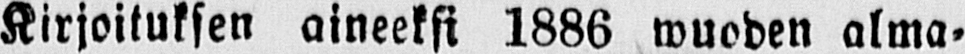Kirjoituksen aineeksi 1886 wuoden alma-
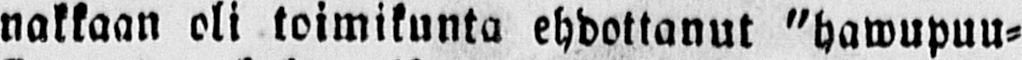nakkaan oli toimikunta ehdottanut "hawupuu-
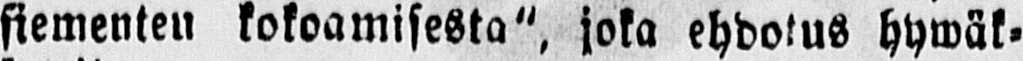siementen kokoamisesta", joka ehdotus hywäk-
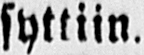syttiin.
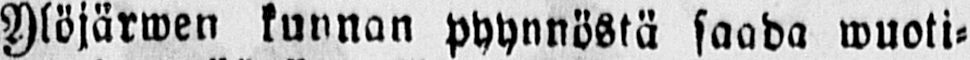Ylöjärwen kunnan pyynnöstä saada wuoti-
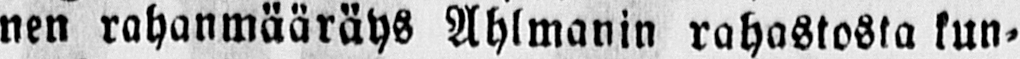nen rahanmääräys Ahlmanin rahastosta kun-
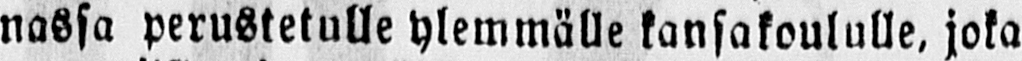nassa perustetulle ylemmälle kansakoululle, joka
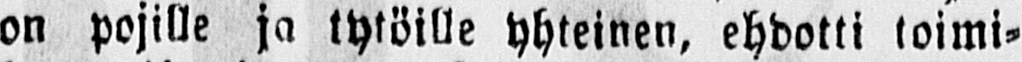on pojille ja tytöille yhteinen, ehdotti toimi-
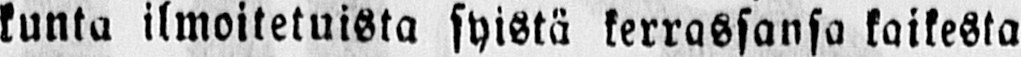kunta ilmoitetuista syistä kerrassansa kaikesta
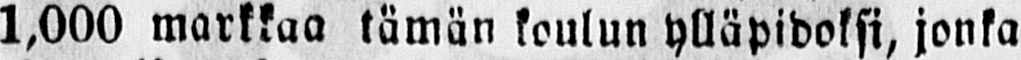1,000 markkaa tämän koulun ylläpidoksi, jonka
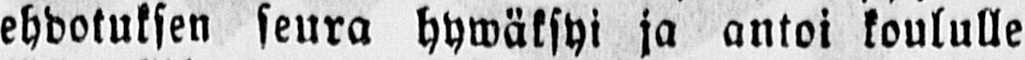ehdotuksen seura hymäksyi ja antoi koululle
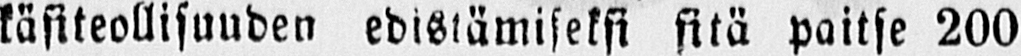käsiteollisuuden edistämiseksi sitä paitse 200
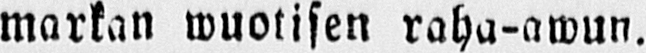markan wuotisen raha-awun.
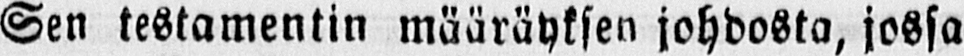Sen testamentin määräyksen johdosta, jossa
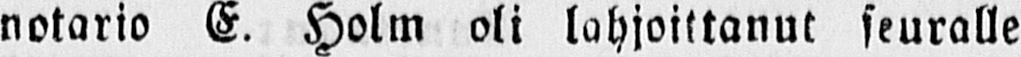notario E. Holm oli lahjoittanut seuralle
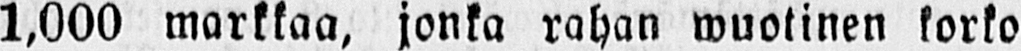1.000 markkaa, jonka rahan wuotinen korko
